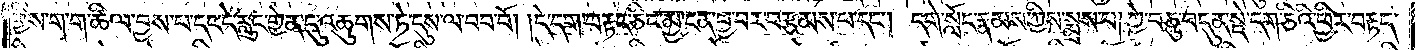གྱིས་ག་ག་ཚིལ་བྱས་པ་དང་དེ་རླུང་གྱེན་དུ་འཆུགས་ཏེ་དུས་ལ་བབ་བོ། །དེ་དག་བརྟད་ཅིང་མྱ་ངན་བྱ་བར་བརྩམས་པ་དང༌། དགེ་སློང་རྣམས་ཀྱིས་སྨྲས་པ། ཀྱེ་བཅུ་བདུན་སྡེ་དག་ཅིའི་ཕྱིར་བརྟད་
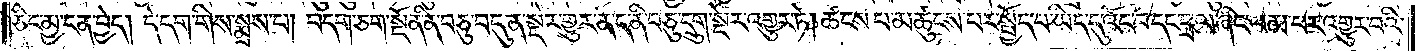ཅིང་མྱ་ངན་བྱེད། དེ་དག་གིས་སྨྲས་པ། བདག་ཅག་སྔོན་ནི་ན་བཅུ་བདུན་སྡེར་གྱུར་ནད་ནི་བཅུ་དྲུག་སྡེར་འགྱུར་ཏེ། ཚངས་པ་མཚུངས་པར་སྤྱོད་པ་ཡིད་དུ་འོང་བ་དང་བྲལ་ཞིང་ཕམ་པར་འགྱུར་བའི་
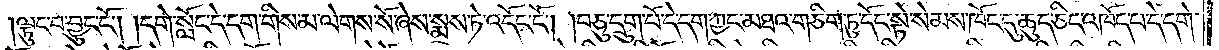།ལྟུང་བ་བྱུང་ངོ༌། །དགེ་སློང་དེ་དག་གིས་མ་ལེགས་སོ་ཞེས་སྨྲས་ཏེ་འདོང་ངོ༌། །བཅུ་དྲུག་པོ་དེ་དག་ཀྱང་མཐའ་གཅིག་ཏུ་དོང་སྟེ་སེམས་ཁོང་དུ་ཆུད་ཅིང་འཁོད་པ་དེ་དགེ་
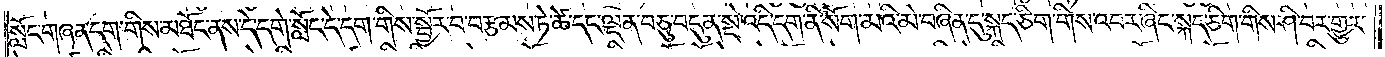སློང་གཞན་དག་གིས་མཐོང་ནས་དེ་དགེ་སློང་དེ་དག་གིས་སྦྱོར་བ་བརྩམས་ཏེ་ཚེ་དང་ལྡན་བཅུ་བདུན་སྡེ་འདི་དག་ནི་སོག་མའི་མེ་བཞིན་དུ་སྐད་ཅིག་གིས་འབར་ཞིང་སྐད་ཅིག་གིས་ཤི་བར་གྱུར་
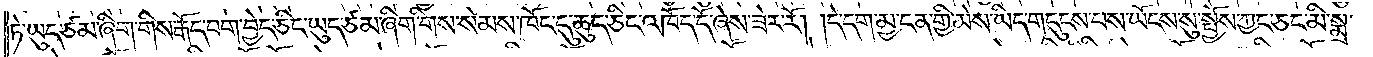ཏེ་ཡུད་ཙམ་ཞིག་གིས་རྒོད་བག་བྱེད་ཅིང་ཡུད་ཙམ་ཞིག་གིས་སེམས་ཁོང་དུ་ཆུད་ཅིང་འཁོད་དོ་ཞེས་ཟེར་རོ། །དེ་དག་མྱ་ངན་གྱི་མེས་ཡིད་གདུངས་པས་ཡོངས་སུ་སྤྱོས་ཀྱང་ཅང་མི་སྨྲ་
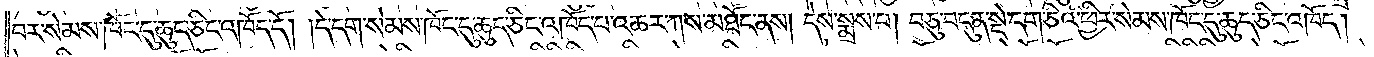བར་སེམས་ཁོང་དུ་ཆུད་ཅིང་འཁོད་དོ། །དེ་དག་སེམས་ཁོང་དུ་ཆུད་ཅིང་འཁོད་པ་འཆར་ཀ་ས་མཐོང་ནས། དེས་སྨྲས་པ། བཅུ་བདུན་སྡེ་དག་ཅིའི་ཕྱིར་སེམས་ཁོང་དུ་ཆུད་ཅིང་འཁོད།
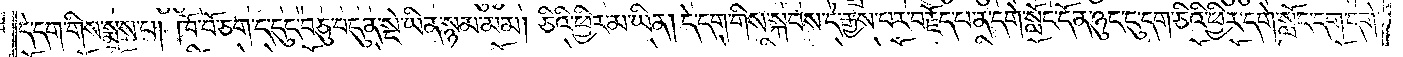དེ་དག་གིས་སྨྲས་པ། ཁོ་བོ་ཅག་ད་དུང་བཅུ་བདུན་སྡེ་ཡིན་སྙམ་མམ། ཅིའི་ཕྱིར་མ་ཡིན། དེ་དག་གིས་སྐབས་དེ་རྒྱས་པར་བརྗོད་པ་ན་དགེ་སློང་དོན་ཉུང་ངུ་དག་ཅིའི་ཕྱིར་དགེ་སློང་དག་དགེ་
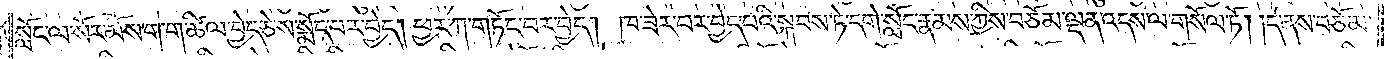སློང་ལ་སོར་མོས་ག་ག་ཚིལ་བྱེད་ཅེས་སྨོད་པར་བྱེད། ཕྱར་ཀ་གཏོང་བར་བྱེད། ཁ་ཟེར་བར་བྱེད་པའི་སྐབས་ཏེ་དགེ་སློང་རྣམས་ཀྱིས་བཅོམ་ལྡན་འདས་ལ་གསོལ་ཏོ། །དེ་ནས་བཅོམ་
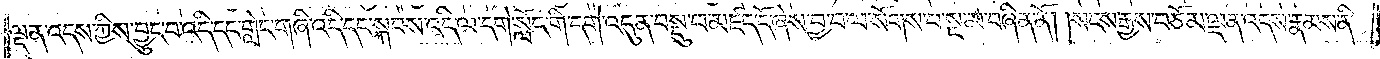ལྡན་འདས་ཀྱིས་བྱུང་བ་འདི་དང་གླེང་གཞི་འདི་དང་སྐབས་འདི་ལ་དགེ་སློང་གི་དགེ་འདུན་བསྡུ་བ་མཛད་དོ་ཞེས་བྱ་བ་ལ་སོགས་པ་སྔ་མ་བཞིན་ནོ། །སངས་རྒྱས་བཅོམ་ལྡན་འདས་རྣམས་ནི་
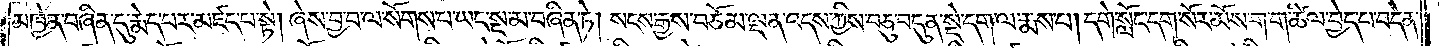མཁྱེན་བཞིན་དུ་རྨེད་པར་མཛད་པ་སྟེ། ཞེས་བྱ་བ་ལ་སོགས་པ་ཡང་སྔ་མ་བཞིན་ཏེ། སངས་རྒྱས་བཅོམ་ལྡན་འདས་ཀྱིས་བཅུ་བདུན་སྡེ་དག་ལ་རྨས་པ། དགེ་སློང་དག་སོར་མོས་ག་ག་ཚིལ་བྱེད་པ་བདེན་
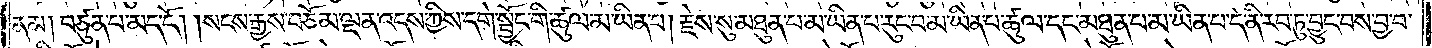ནམ། བཙུན་པ་མད་དོ། །སངས་རྒྱས་བཅོམ་ལྡན་འདས་ཀྱིས་དགེ་སྦྱོང་གི་ཚུལ་མ་ཡིན་པ། རྗེས་སུ་མཐུན་པ་མ་ཡིན་པ་རུང་བ་མ་ཡིན་པ་ཚུལ་དང་མཐུན་པ་མ་ཡིན་པ་དེ་ནི་རབ་ཏུ་བྱུང་བས་བྱ་བ་
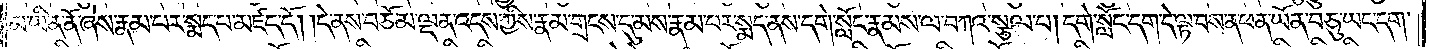མ་ཡིན་ནོ་ཞེས་རྣམ་པར་སྨད་པ་མཛད་དོ། །དེ་ནས་བཅོམ་ལྡན་འདས་ཀྱིས་རྣམ་གྲངས་དུ་མས་རྣམ་པར་སྨད་ནས་དགེ་སློང་རྣམས་ལ་བཀའ་སྩལ་པ།དགེ་སློང་དག་དེ་ལྟ་བས་ན་ཕན་ཡོན་བཅུ་ཡང་དག་
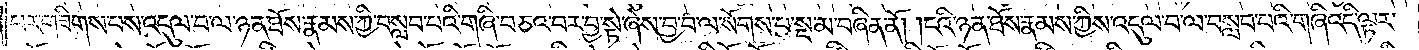པར་གཟིགས་པས་འདུལ་བ་ལ་ཉན་ཐོས་རྣམས་ཀྱི་བསླབ་པའི་གཞི་བཅའ་བར་བྱ་སྟེ་ཞེས་བྱ་བ་ལ་སོགས་པ་སྔ་མ་བཞིན་ནོ། །ངའི་ཉན་ཐོས་རྣམས་ཀྱིས་འདུལ་བ་ལ་བསླབ་པའི་གཞི་འདི་ལྟར་
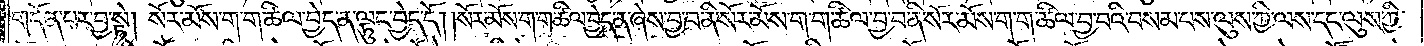གདོན་པར་བྱ་སྟེ། སོར་མོས་ག་ག་ཚིལ་བྱེད་ན་ལྟུང་བྱེད་དོ། །སོར་མོས་ག་ག་ཚིལ་བྱེད་ན་ཞེས་བྱ་བ་ནི་སོར་མོས་ག་ག་ཚིལ་བྱ་བ་ནི་སོར་མོས་ག་ག་ཚིལ་བྱ་བའི་བསམ་པས་ལུས་ཀྱི་ལས་དང་ལུས་ཀྱི་
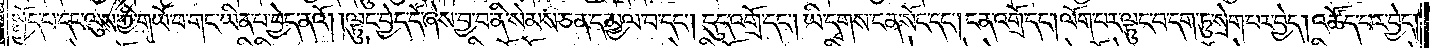སྤྱོད་པ་དང་ལུས་ཀྱི་གཡོ་བ་གང་ཡིན་པ་བྱེད་ནའོ། །ལྟུང་བྱེད་དོ་ཞེས་བྱ་བ་ནི་སེམས་ཅན་དམྱལ་བ་དང༌། དུད་འགྲོ་དང༌། ཡི་དྭགས་ངན་སོང་དང༌། ངན་འགྲོ་དང༌།ལོག་པར་ལྟུང་བ་དག་ཏུ་སྲེག་པར་བྱེད། འཚོད་པར་བྱེད།
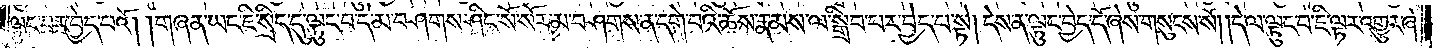ལྟུང་བར་བྱེད་པའོ། །གཞན་ཡང་ཇི་སྲིད་དུ་ལྟུང་བ་དེ་མ་བཤགས་ཤིང་སོ་སོར་མ་བཤགས་ན་དགེ་བའི་ཆོས་རྣམས་ལ་སྒྲིབ་པར་བྱེད་པ་སྟེ། དེས་ན་ལྟུང་བྱེད་དོ་ཞེས་གསུངས་སོ། །དེ་ལ་ལྟུང་བ་ཇི་ལྟར་འགྱུར་ཞེ་
